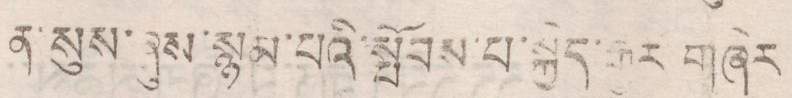ན་སུས་ཞུས་སྙམ་པའི་སྤོབས་པ་སྐྱེད་རྒྱུར གཞེར
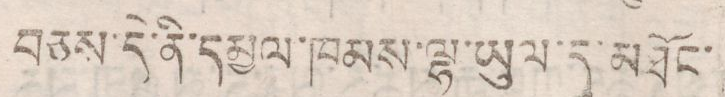བཅས་དེ་ནི་དམྱལ་ཁམས་ལྷ་ཡུལ་དུ་མཐོང་
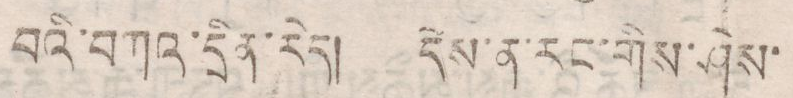བའི་བཀའ་དྲིན་རེད། དེས་ན་རང་གིས་ཤེས་
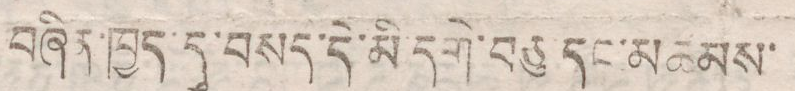བཞིན་ཁྱད་དུ་བསད་དེ་མི དགེ་བཅུ དང་མཚམས་
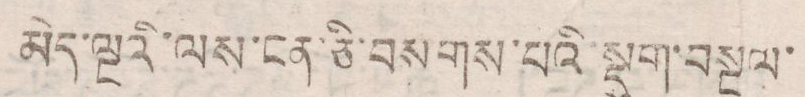མེད་ལྔའི་ལས་ངན་ཅི་བསགས་པའི་སྡུག་བསྔལ་
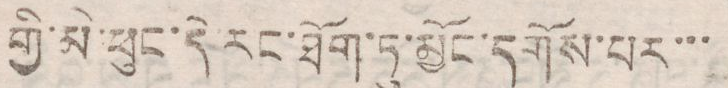གྱི་མེ་ཕུང་དེ རང་ཐོག་ཏུ་མྱོང་དགོས་པར་་་
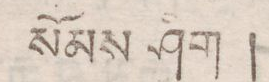སོམས་ཤིག །
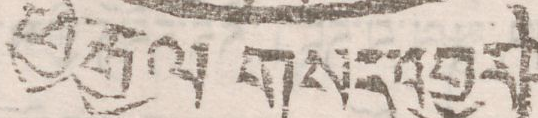ཕྱི་རྒྱལ གསར་འགྱུར
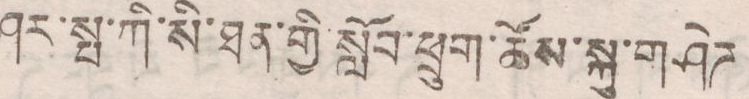ཤར་སྤ་ཀི་སི་ཐན་གྱི་སློབ་ཕྲུག་ཚོས་སྐུ་གཤེཌ
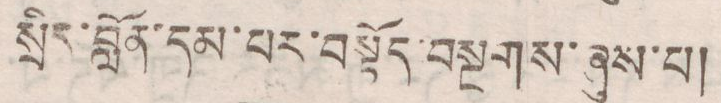སྲིད་བློན་དམ་པར་བསྟོད་བསྔགས་ཞུས་པ།
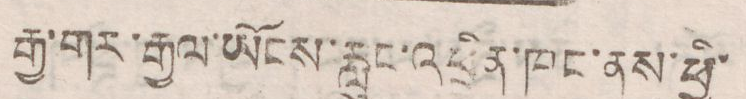རྒྱ་གར་རྒྱལ་ཡོངས་རླུང་འཕྲིན་ཁང་ནས་ཕྱི་
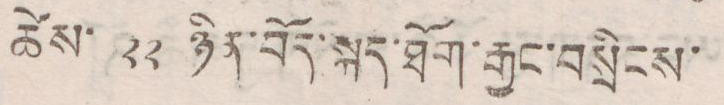ཚེས་ ༢༢ ཉིན་བོད་སྐད་ཐོག་རྒྱང་བསྲིངས་
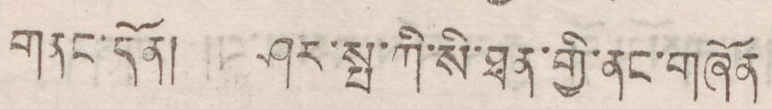གནང་དོན། ཤར་སྤ་ཀི་སི་ཐན་གྱི་ནང་གཞོན
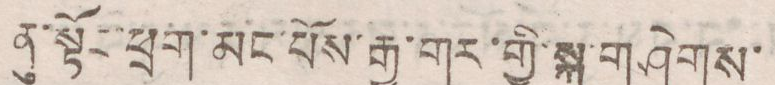ནུ་སྟོང་ཕྲག་མང་པོས་རྒྱ་གར་གྱི་སྐུ་གཤེགས་
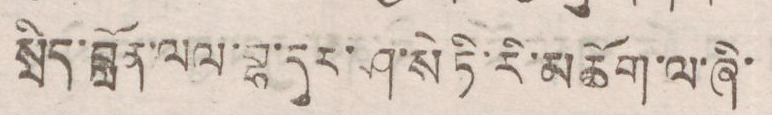སྲིད་བློན་ལལ་བྷ་དུར་ཤ་སི་ཏི་རི་མཆོག་ལ་ཞི་
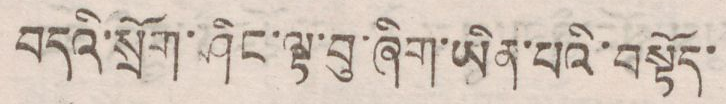བདའི་སྲོག་ཤིང་ལྟ་བུ་ཞིག་ཡིན་པའི་བསྟོད་
